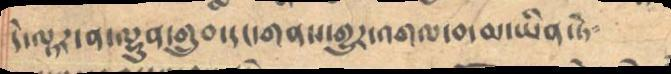དེ་ལྟར་ན་ལྷུན་གྲུབ་དང་གནས་གྱུར་འགལ་བ་མ་ཡིན་ཏེ༴
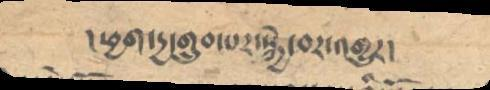།ཕྱག་དྱ་གྲུབ་པར་སྐྱེ་བར་འགྱུར།
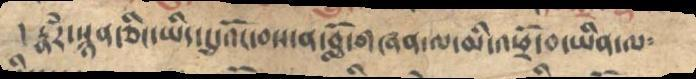།རྣཾར་སྙན་ཅིང་ཡིད་དུ་འོང་བས་ན་བློ་གཞན་ལ་མི་འཕྲོ་བ་ཡིན་ལ༴
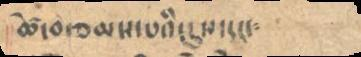ཚེ་བརྩམས་པའི་དུས་དང་༴
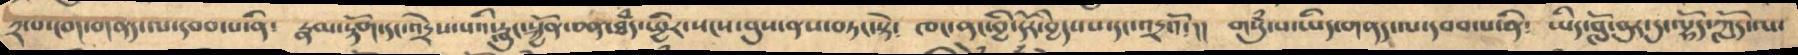༢པ་ངག་གནད་ལ་དབབ་པ་ནི་  རྣམ་རྟོག་དང་འདྲེས་རླུང་སྐྱོན་ཅན་ཐྃད་ཕྱིར་སངས་ནུས་ནས་བཏང་སྟེ་  ཁང་ནང་ཕྱི་དོར་བྱེདཔས་དང་འདྲའོ།།  གསུྃ་པ་ཡིད་གནད་ལ་དབབ་པ་ནི༴  ཡིད་བློ་བུར་དུ་ལྷོད་ཀློད་ལ་
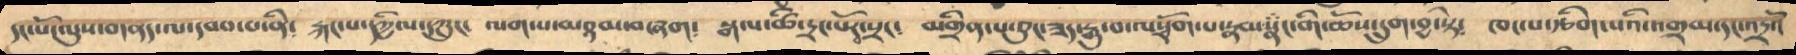དང་པོ་ལུས་གནད་ལ་དབབ་པ་ནི༴  རྐང་པ་དཀྱིལ་དཀྲུང་  ལག་པ་མཉམ་བཞག༴  སྒལ་ཚི་དྲང་པོར་སྲང༴   མགྲིན་པ་ཅུང་ཟད་རྒུ་བ་ལསྭོག་པ་སྣམ་སྣིང་གི་ཆོས་དྲུག་བྱ་སྟེ༴  ཁང་པ་རྩིག་པའི་འགྲམ་དང་འདྲའོ
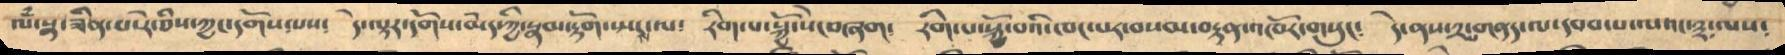ལྃ་སྣ་ཟིན་པ་རེ་ཅིས་ཀྱང་དགོས་པས་  དེ་ལྟར་དགོས་མེད་ཀྱི་རྣམ་རྟོག་ཡང་ལ༴  རིག་པ་སྐྱོ་སེང་བཞག༴ རིག་པ་སྐྱོ་བའི་ཁང་པར་བསམ་བསྟན་འཁོར་གསུང༴   དེ་ནས་༢་གནད་ལ་དབབ་པ་ལའང་༣་ལས་
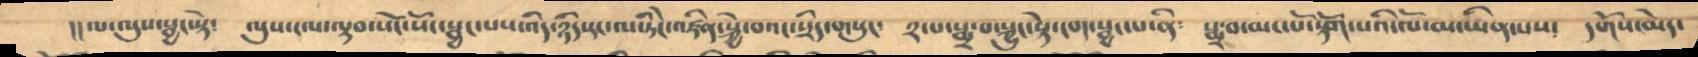།།ལ་ལུས་སྦྱང་སྟེ༴ ལུས་ངལ་ལྟབ་སོང་སོང་སྦྱང་པས་འདི་ཉིད་རང་ལ་ཏིངེ་འཛིན་སྐྱེ་བའང་སྲིད་གསུང་ ༢་པ་སྨྲ་བ་སྐྱུང་སྟེ་ངག་སྦྱང་པ་ནི༴ སྨྲ་བ་མང་པོ་རྟོག་པའི་ལོ་མ་ཡིན་པས་ དགོས་མེད་
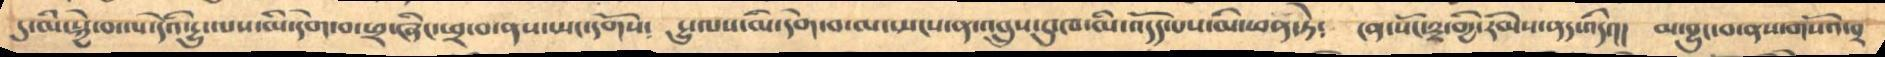དུ་མི་སྐྱེ་བ་ལ་དེའི་རྱུ་ལས་མི་དགེ་བ་ཕྲ་ཞིང་ཕྲ་བ་ནས་ཡང་དགོས༴ རྱུ་ལས་མི་དགེ་བ་ལ་སྤངས་ན་འབྲུས་དུ་ཁ་མི་འདོད་པས་མི་ཕན་ཏེ༴ ངན་སོང་༣་གྱི་རིམས་ནད་འདི་།། མ་བྱུང་བ་ནས་གསོའ་བྲ
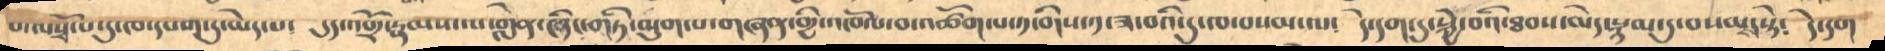པ་ལསྭོ་པ་དུ་ཁ་དཔག་དུ་མེད་པ་ དུད་འགྲོ་རྣམས་ལ་གླེན་ཞིང་གཏི་མུག་པ་གཞན་གྱི་འཁོལ་བ་འཚོག་པས་༡་གིས་༡་ཟ་བའི་དུ་ཁ་བསམ་པ༴ དེ་དག་དུ་སྐྱེ་བའི་ཐབས་མེད་སྙམ་དུ་བསམ་སྟེ༴ དེ་དག
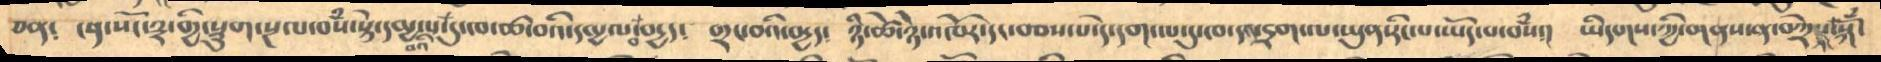ཅན༴ ངན་སོང་༣་གྱི་སྡུག་སྔལ་བསཾ་སྟེ་དམྱ་པ་དུ་ཁ་ཚ་བའི་དམྱལ་བདྱད༴ གྲང་བའི་བདྱད༴ ཉི་ཚེ་ཉེ་འཁོར་དང་བབས་པ་དེ་དག་ལ་དུ་ཁ་ད་དྲག་ལ་ཡུན་རིང་པ་ཡོད་པ་བསཾ༴། ཡིདགས་ཀྱི་གནས་ན་བཀྲེས་སྐོཾ་
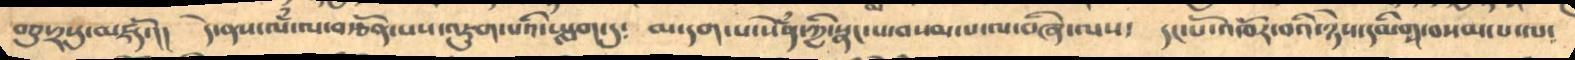བཅུ་༢སུ་མཛོད་།། དེ་ནས་ལཾ་ལ་བརྩོན་པས་འཇུག་པའི་ཡླག་དུ༴ མ་དག་པ་སེཾན་ཀྱི་སྣང་པ་བསམ་པ་ལ་བཞི་ལས་ དང་པོ་འཁོར་བའི་ཉེས་དམིག་བསམ་པ་ལ་
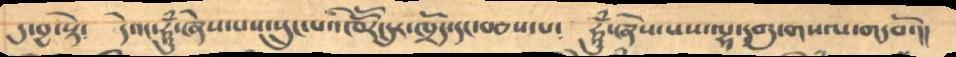དུ་བྱ་སྟེ༴ དེའང་ཧཱུྃ་ཞེས་པས་སྲུང་པའི་འཁཽར་དུར་ཁྲོད་དང་བཅས་པ་ ཧཱུྃ་ཞེས་པས་ལྷ་དགུ་གསལ་གདབོ་།།
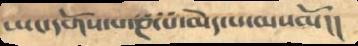ཡང་དགོས་པ་ཎ་པ་མེད་པ་མསམོ།།
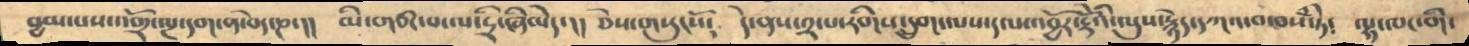བྱམ་པས་འགྲོ་ལྔ་དག་ན་བདེ་ཎ་།། མི་གཙང་པ་ལ་དྲི་ཞིམེད་།། ཅེས་གསུངསོ༴ དེ་ནས་༢་པ་རིགས་དྲུག་ལས་དལ་འབྱོར་རྡོེའི་ལུས་རྙེད་དཀའ་བ་བསཾ་ཏེ༴ ལྷ་ལང་གི་
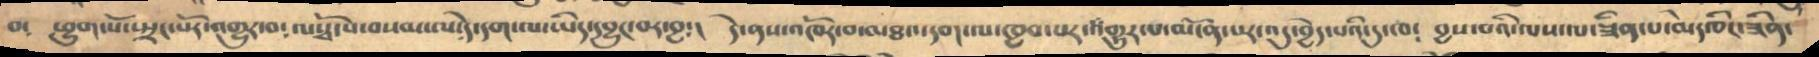བ༴ ཕྱུག་པོ་སྤྲང་པོར་འགྱུར་བ་ལསྭོ་པ་བསམ་ལ་དེ་དག་ལ་ཡིད་དབྱུང་བར་བྱ་། དེ་ནས་འཁོར་བ་མཐའ་དག་ལ་ཁྱབ་པར་འགྱུར་པ་མངོན་པར་འདུ་བྱེད་པའི་དུ་ཁ༴ བྱས་པའི་ལས་ལ་ཟིན་པ་མེད་ཅིང་ཟིན་
